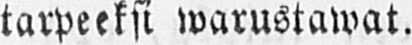tarpeeksi warustawat.
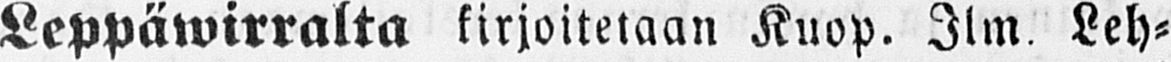Leppäwirralta kirjoitetaan Kuop. Ilm. Leh-
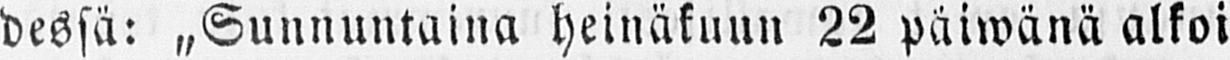dessä: „Sunnuntaina heinäkuun 22 päiwänä alkoi
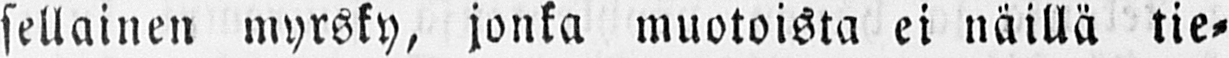sellainen myrsky, jonka muotoista ei näillä tie-
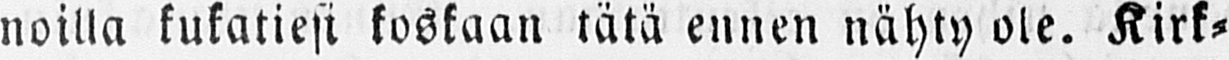noilla kukatiesi koskaan tätä ennen nähty ole. Kirk-
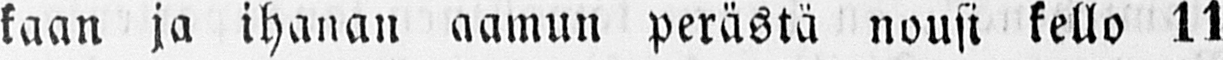kaan ja ihanan aamun perästä nousi kello 11
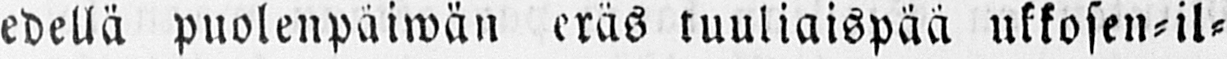edellä puolenpäiwän eräs tuuliaispää ukkosen-il-
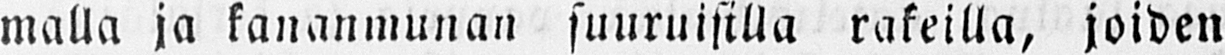malla ja kananmunan suuruisilla rakeilla, joiden
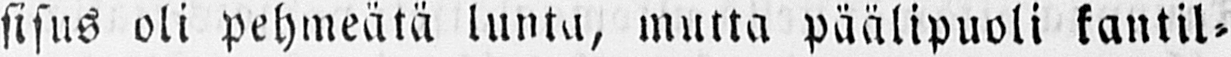sisus oli pehmeätä lunta, mutta päälipuoli kantil-
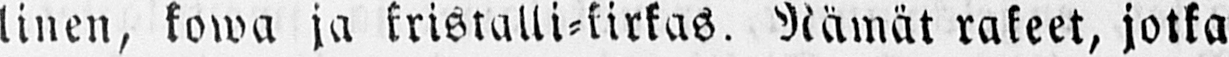linen, kowa ja kristalli-kirkas. Nämät rakeet, jotka
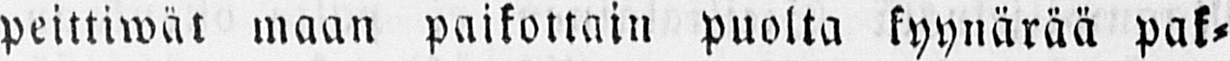peittiwät maan paikottain puolta kyynärää pak-
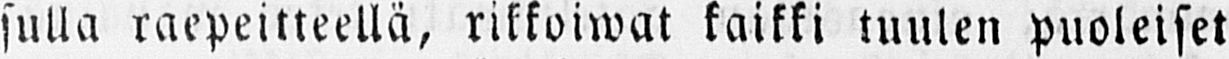sulla raepeitteellä, rikkoiwat kaikki tuulen puoleiset
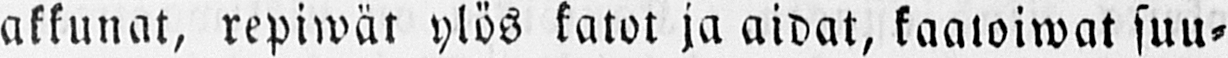akkunat, repiwät ylös katot ja aidat, kaatoiwat suu-
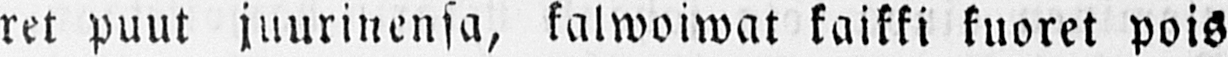ret puut juurinensa, kalwoiwat kaikki kuoret pois
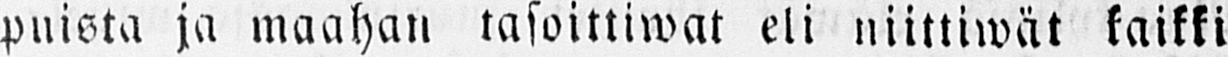puista ja maahan tasoittiwat eli niittiwät kaikki
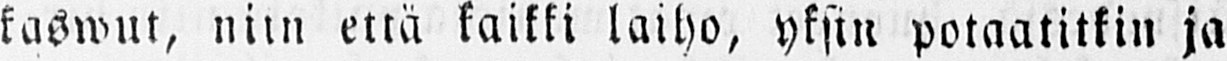kaswut, niin että kaikki laiho, yksin potaatitkin ja
